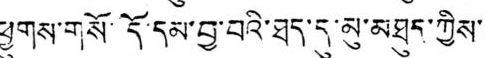ཕྱུགས་གསོ་དོ་དམ་བྱ་བའི་ཐད་དུ་མུ་མཐུད་ཀྱིས་
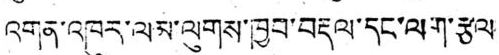འགན་འཁུར་ལམ་ལུགས་ཁྱབ་བརྡལ་དང་ལག་རྩལ
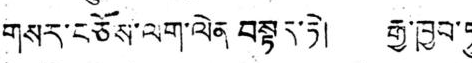གསར་བཅོས་ལག་ལེན བསྟད་ཏེ། རྒྱ་ཁྱབ་ཏུ་
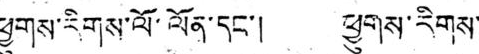ཕྱུགས་རིགས་ལོ་ལོན་དང་། ཕྱུགས་རིགས་
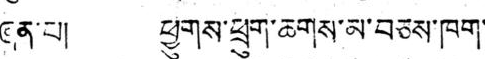ཞན་པ། ཕྱུགས་ཕྲུག་ཆགས་མ་བཅས་ཁག་
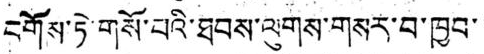བགོས་ཏེ་གོས་བའི་ཐབས་ལུགས་གསར་བ་ཁྱབ་་
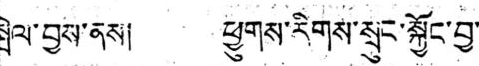སྤེལ་བྱས་ནས། ཕྱུགས་རིགས་སྲུང་སྐྱོང་བྱ་
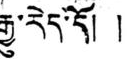རྒྱུ་རེད་དོ། །
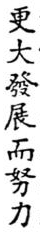更大發展而努力
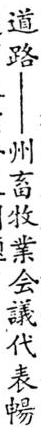道路——州畜牧業会議代表暢
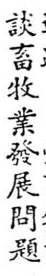談畜牧業發展問題
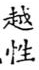越性
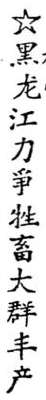☆黑龙江力爭牲畜大群丰产
